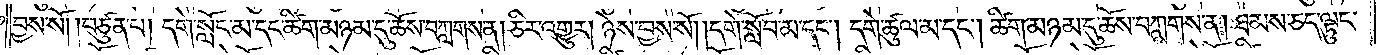བྱས་སོ། །བཙུན་པ། དགེ་སློང་མ་དང་ཚིག་མཉམ་དུ་ཆོས་བཀླགས་ན། ཅིར་འགྱུར། ཉེས་བྱས་སོ། །དགེ་སློབ་མ་དང༌། དགེ་ཚུལ་མ་དང༌། ཚིག་མཉམ་དུ་ཆོས་བཀླགས་ན། ཐམས་ཅད་ལྟུང་
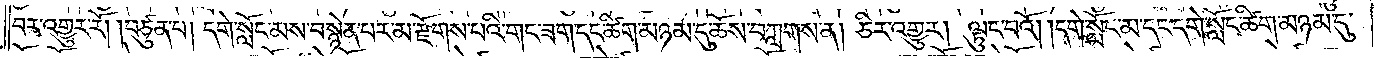བར་འགྱུར་རོ། །བཙུན་པ། དགེ་སློང་མས་བསྙེན་པར་མ་རྫོགས་པའི་གང་ཟག་དང་ཚིག་མཉམ་དུ་ཆོས་བཀླགས་ན། ཅིར་འགྱུར། །ལྟུང་བའོ། །དགེ་སློང་མ་དང་དགེ་སློང་ཚིག་མཉམ་དུ་
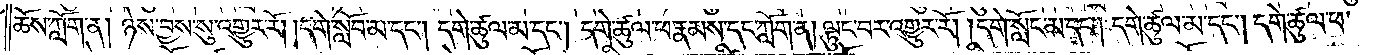ཆོས་ཀློག་ན། ཉེས་བྱས་སུ་འགྱུར་རོ། །དགེ་སློབ་མ་དང༌། དགེ་ཚུལ་མ་དང༌། དགེ་ཚུལ་ཕ་རྣམས་དང་ཀློག་ན། ལྟུང་བར་འགྱུར་རོ། །དགེ་སློང་མ་དང༌། དགེ་ཚུལ་མ་དང༌། དགེ་ཚུལ་ཕ་
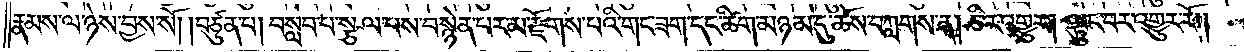རྣམས་ལ་ཉེས་བྱས་སོ། །བཙུན་པ། བསླབ་པ་སྩལ་པས་བསྙེན་པར་མ་རྫོགས་པའི་གང་ཟག་དང་ཚིག་མཉམ་དུ་ཆོས་བཀླགས་ན། ཅིར་འགྱུར། ལྟུང་བར་འགྱུར་རོ༎
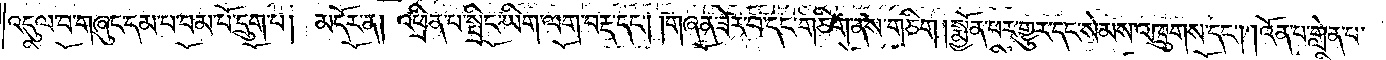འདུལ་བ་གཞུང་དམ་པ་བམ་པོ་དྲུག་པ། མདོར་ན། འཕྲིན་པ་སྤྲིང་ཡིག་ལག་བརྡ་དང༌། །གཞན་ཟེར་བ་དང་གཅིག་ནས་གཅིག །སྨྱོན་པར་གྱུར་དང་སེམས་འཁྲུགས་དང༌། །འོན་པ་གླེན་པ་
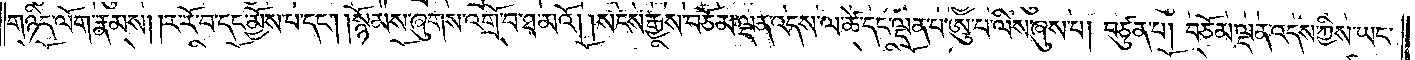གཉིད་ལོག་རྣམས། །ར་རོ་བ་དང་མྱོས་པ་དང༌། །སྙོམས་ཞུགས་འགྲོ་བ་ཐ་མའོ། །སངས་རྒྱས་བཅོམ་ལྡན་འདས་ལ་ཚེ་དང་ལྡན་པ་ཨུ་པ་ལིས་ཞུས་པ། བཙུན་པ། བཅོམ་ལྡན་འདས་ཀྱིས་ཡང་
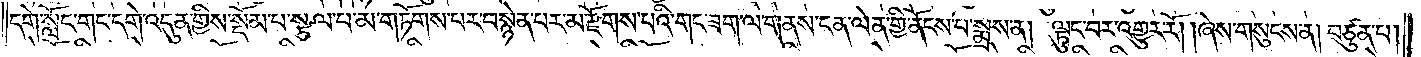དགེ་སློང་གང་དགེ་འདུན་གྱིས་སྡོམ་པ་སྩལ་པ་མ་གཏོགས་པར་བསྙེན་པར་མ་རྫོགས་པའི་གང་ཟག་ལ་གནས་ངན་ལེན་གྱི་ནོངས་པ་སྨྲས་ན། ལྟུང་བར་འགྱུར་རོ། །ཞེས་གསུངས་ན། བཙུན་པ།
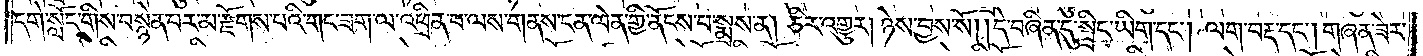དགེ་སློང་གིས་བསྙེན་པར་མ་རྫོགས་པའི་གང་ཟག་ལ་འཕྲིན་པ་ལས་གནས་ངན་ལེན་གྱི་ནོངས་པ་སྨྲས་ན། ཅིར་འགྱུར། ཉེས་བྱས་སོ། །དེ་བཞིན་དུ་སྤྲིང་ཡིག་དང༌། ལག་བརྡ་དང༌། གཞན་ཟེར་
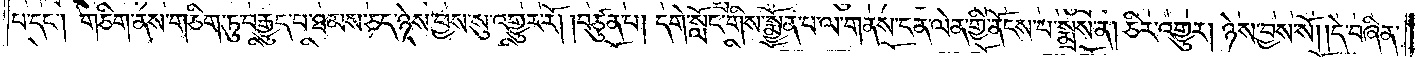པ་དང༌། གཅིག་ནས་གཅིག་ཏུ་བརྒྱུད་པ་ཐམས་ཅད་ཉེས་བྱས་སུ་འགྱུར་རོ། །བཙུན་པ། དགེ་སློང་གིས་སྨྱོན་པ་ལ་གནས་ངན་ལེན་གྱི་ནོངས་པ་སྨྲས་ན། ཅིར་འགྱུར། ཉེས་བྱས་སོ། །དེ་བཞིན་
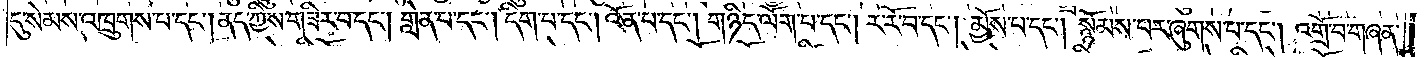དུ་སེམས་འཁྲུགས་པ་དང༌། ནད་ཀྱིས་གཟིར་བ་དང༌། གླེན་པ་དང༌། དིག་པ་དང༌། འོན་པ་དང༌། གཉིད་ལོག་པ་དང༌། ར་རོ་བ་དང༌། མྱོས་པ་དང༌། སྙོམས་པར་ཞུགས་པ་དང༌། འགྲོ་བ་གཞན་
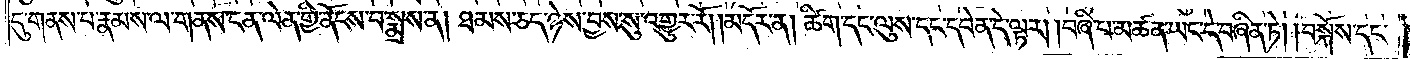དུ་གནས་པ་རྣམས་ལ་གནས་ངན་ལེན་གྱི་ནོངས་པ་སྨྲས་ན། ཐམས་ཅད་ཉེས་བྱས་སུ་འགྱུར་རོ། །མདོར་ན། ཚིག་དང་ལུས་དང་དབེན་དེ་ལྟར། བཞི་པ་མཚན་ཡང་དེ་བཞིན་ཏེ། བསྐོས་དང་
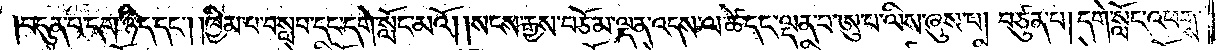།བདུན་པ་དག་ཉིད་དང༌། །ཁྱིམ་པ་བསླབ་དང་དགེ་སློང་མའོ། །སངས་རྒྱས་བཅོམ་ལྡན་འདས་ལ་ཚེ་དང་ལྡན་པ་ཨུ་པ་ལིས་ཞུས་པ། བཙུན་པ། དགེ་སློང་འཕགས་
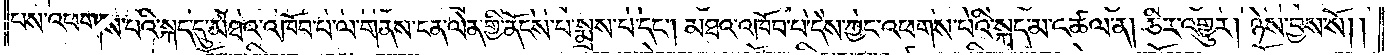པས་འཕགས་པའི་སྐད་དུ་མཐའ་འཁོབ་པ་ལ་གནས་ངན་ལེན་གྱི་ནོངས་པ་སྨྲས་པ་དང༌། མཐའ་འཁོབ་པ་དེས་ཀྱང་འཕགས་པའི་སྐད་མ་འཚལ་ན། ཅིར་འགྱུར། ཉེས་བྱས་སོ། །
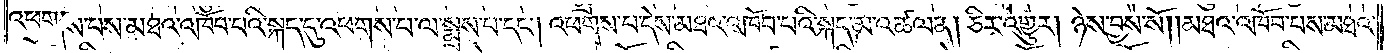འཕགས་པས་མཐའ་འཁོབ་པའི་སྐད་དུ་འཕགས་པ་ལ་སྨྲས་པ་དང༌། འཕགས་པ་དེས་མཐའ་འཁོབ་པའི་སྐད་མ་འཚལ་ན། ཅིར་འགྱུར། ཉེས་བྱས་སོ། །མཐའ་འཁོབ་པས་མཐའ་
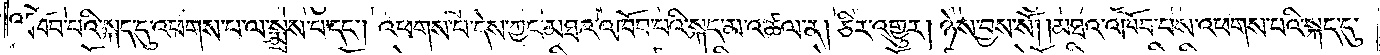འཁོབ་པའི་སྐད་དུ་འཕགས་པ་ལ་སྨྲས་པ་དང༌། འཕགས་པ་དེས་ཀྱང་མཐའ་འཁོབ་པའི་སྐད་མ་འཚལ་ན། ཅིར་འགྱུར། ཉེས་བྱས་སོ། །མཐའ་འཁོབ་པས་འཕགས་པའི་སྐད་དུ་
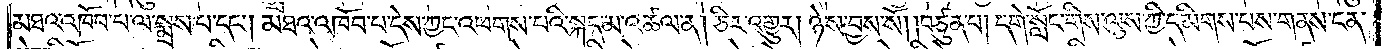མཐའ་འཁོབ་པ་ལ་སྨྲས་པ་དང༌། མཐའ་འཁོབ་པ་དེས་ཀྱང་འཕགས་པའི་སྐད་མ་འཚལ་ན། ཅིར་འགྱུར། ཉེས་བྱས་སོ། །བཙུན་པ། དགེ་སློང་གིས་ལུས་ཀྱི་དམིགས་པས་གནས་ངན་
